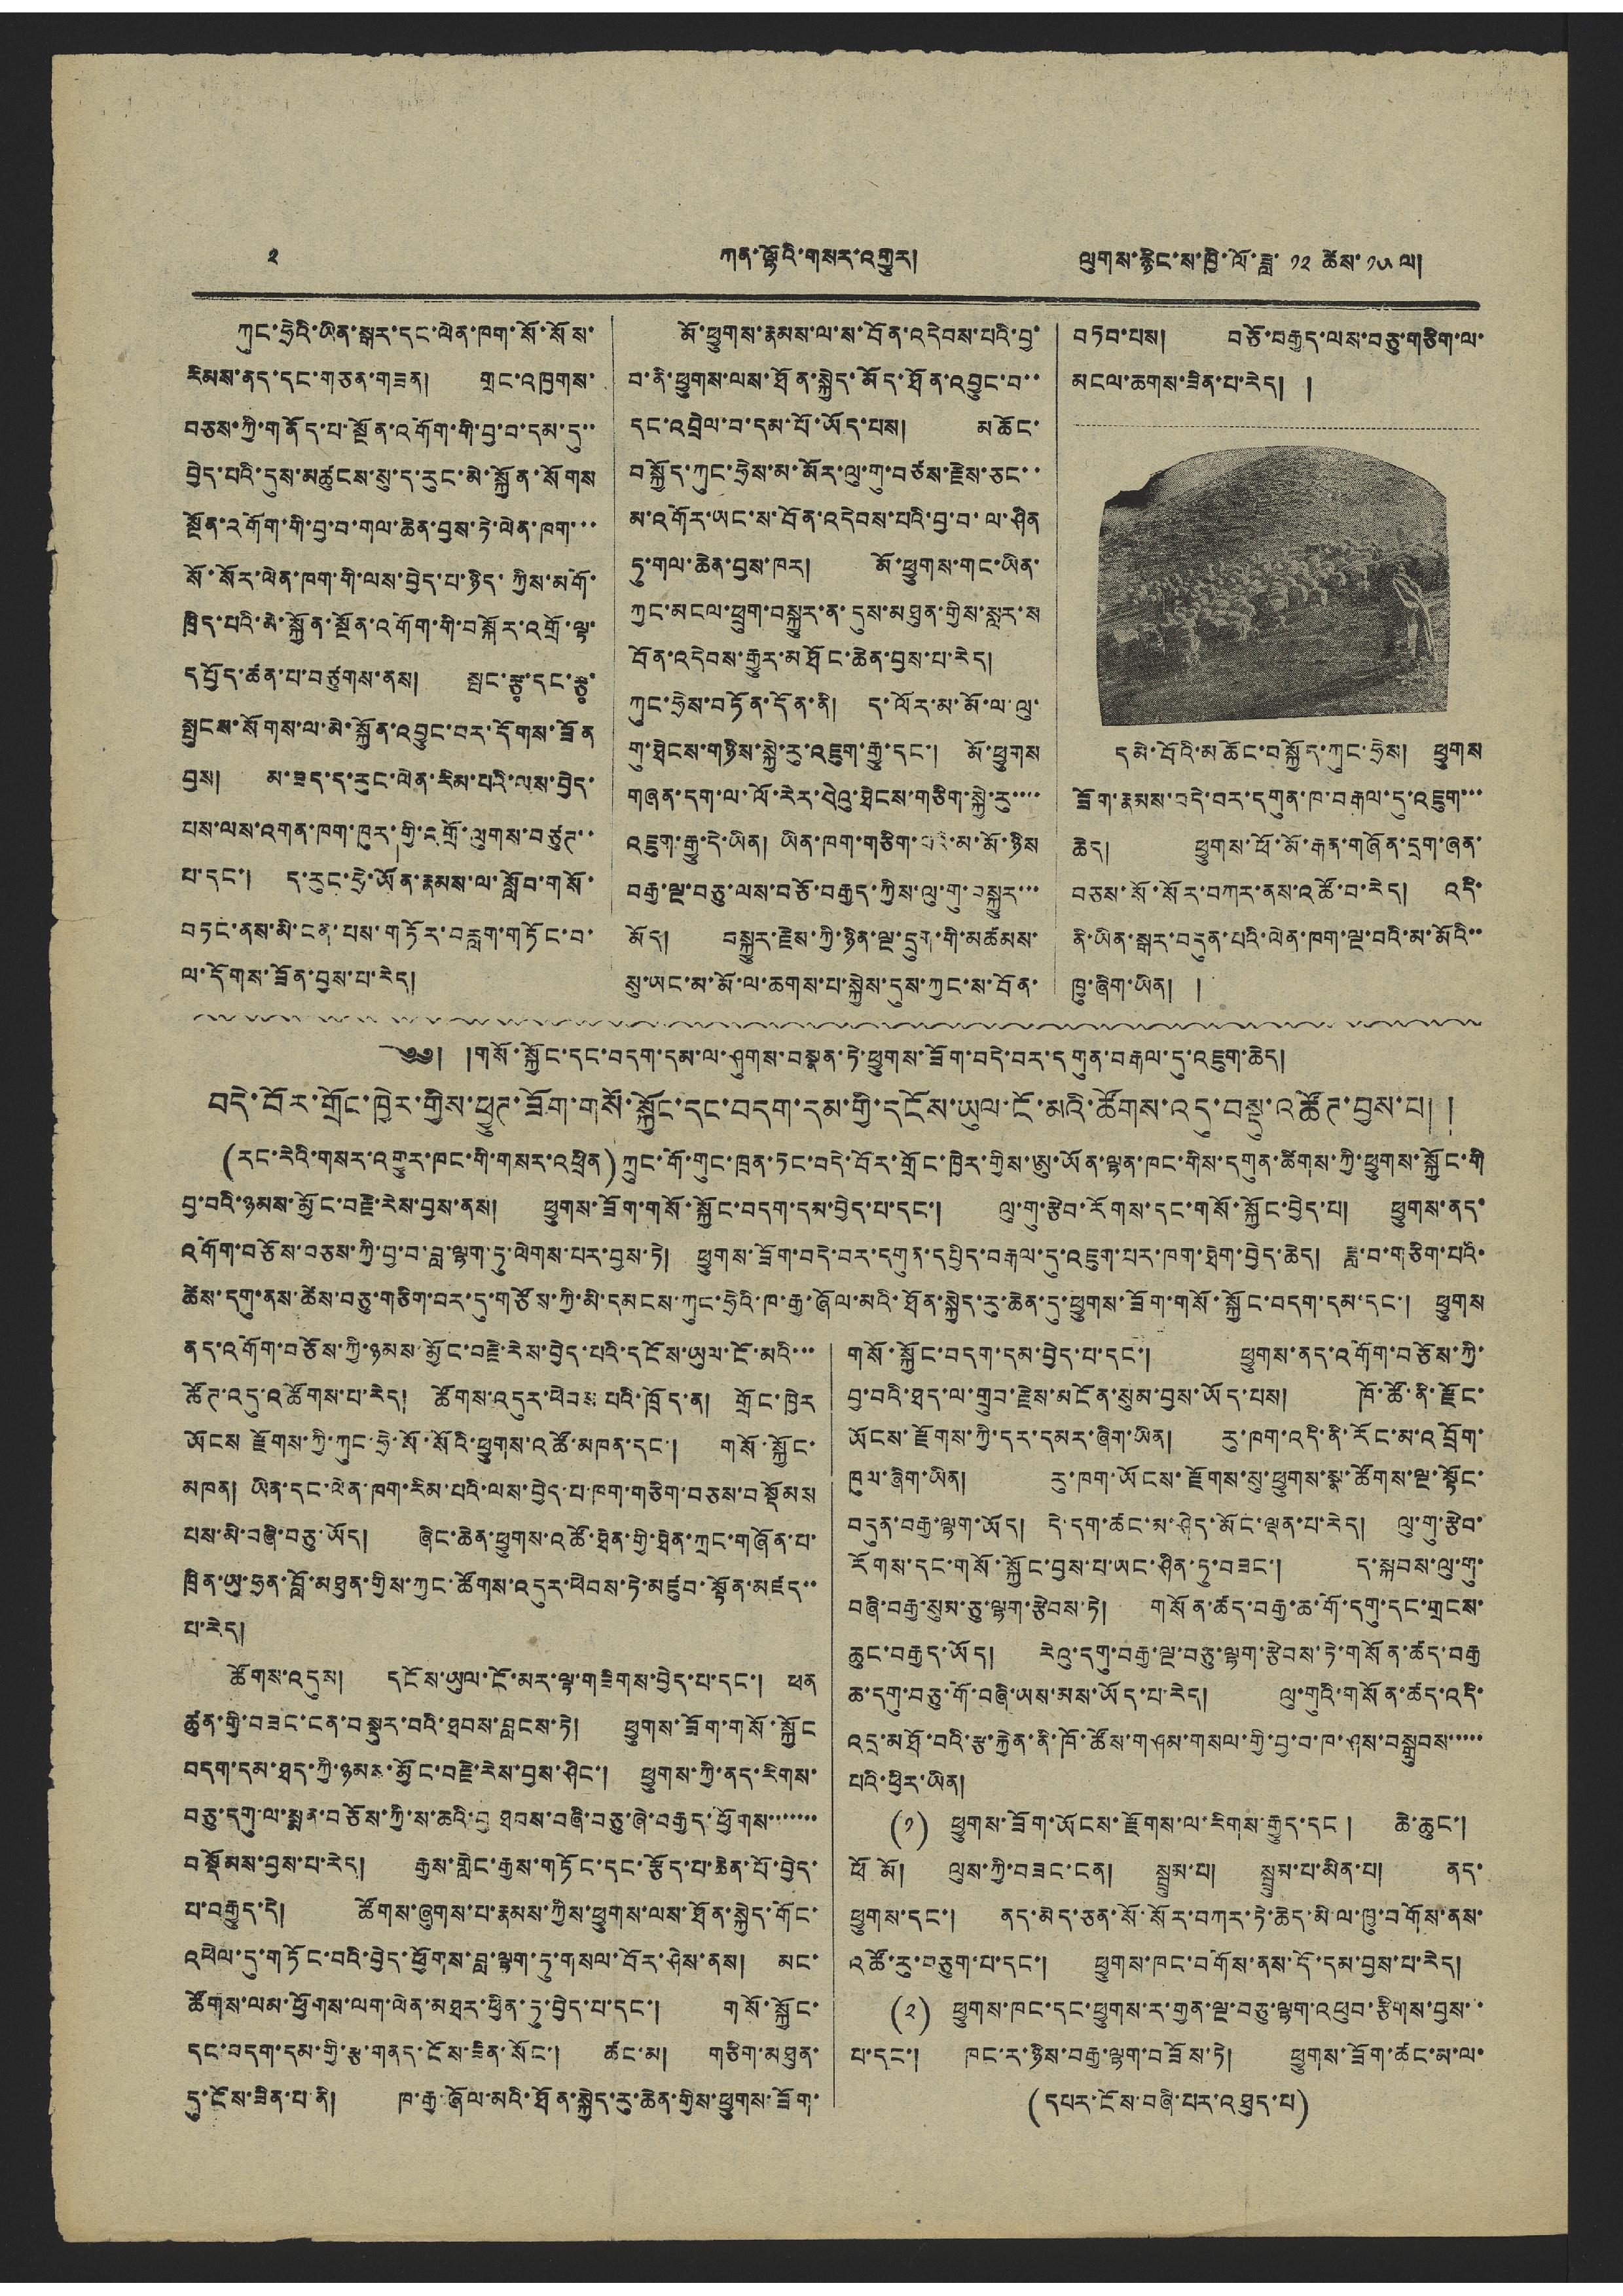༢ ཀན་ལྷོའི་གསར་འགྱུར། ལུགས་རྙིང་ས་ཁྱི་ལོ་ཟླ་ ༡༢ ཚེས་ ༡༥ ལ།
ཀུང་ཧྲེའི་ཡིན་སྒར་དང་ལེན་ཁག་སོ་སོས་
རིམས་ནད་དང་གཅན་གཟན། གྲང་འཁྱགས་
བཅས་ཀྱི་གནོད་པ་སྔོན་འགོག་གི་བྱ་བ་དམ་དུ་་
བྱེད་པའི་དུས་མཚུངས་སུ་ད་རུང་མེ་སྐྱོན་སོགས
སྔོན་འགོག་གི་བྱ་བ་གལ་ཆེན་བྱས་ཏེ་ལེན་ཁག་་་
སོ་སོར་ལེན་ཁག་གི་ལས་བྱེད་པ་ཉིད་ཀྱིས་མགོ་
ཁྲིད་པའི་མེ་སྐྱོན་སྔོན་འགོག་གི་བསྐོར་འགྲོ་ལྟ་
དཔྱོད་ཚན་པ་བཙུགས་ནས། སྤང་རྩྭ་དང་རྩྭ་
སྤུངས་སོགས་ལ་མེ་སྐྱོན་འབྱུང་བར་དོགས་ཟོན
བྱས། མ་ཟད་ད་རུང་ལེན་རིམ་པའི་ལས་བྱེད་
པས་ལས་འགན་ཁག་ཁུར་གྱི་འགྲོ་ལུགས་བཙུཌ་་
པ་དང་། ད་རུང་ཧྲེ་ཡོན་རྣམས་ལ་སློབ་གསོ་
བཏང་ནས་མི་ངན་པས་གཏོར་བརླག་གཏོང་བ་
ལ་དོགས་ཟོན་བྱས་པ་རེད།
མོ་ཕྱུགས་རྣམས་ལ་ས་བོན་འདེབས་པའི་བྱ་
བ་ནི་ཕྱུགས་ལས་ཐོན་སྐྱེད་མོད་ཐོན་འབྱུང་བ་་
དང་འབྲེལ་བ་དམ་པོ་ཡོད་པས། མཆོང་
བསྐྱོད་ཀུང་ཧྲེས་མ་མོར་ལུ་གུ་བཙས་རྗེས་ཅང་་
མ་འགོར་ཡང་ས་བོན་འདེབས་པའི་བྱ་བ་ལ་ཤིན
ཏུ་གལ་ཆེན་བྱས་ཁར། མོ་ཕྱུགས་གང་ཡིན་
ཀྱང་མངལ་ཕྲུག་བསྐྱུར་ན་དུས་མཐུན་གྱིས་སླར་ས
བོན་འདེབས་རྒྱུར་མཐོང་ཆེན་བྱས་པ་རེད།
ཀུང་ཧྲེས་བཏོན་དོན་ནི། ད་ལོར་མ་མོ་ལ་ལུ་
གུ་ཐེངས་གཉིས་སྐྱེ་རུ་འཇུག་རྒྱུ་དང་། མོ་ཕྱུགས
གཞན་དག་ལ་ལོ་རེར་བེའུ་ཐེངས་གཅིག་སྐྱེ་རུ་་་་
འཇུག་རྒྱུ་དེ་ཡིན། ཡིན་ཁག་གཅིག་པའི་མ་མོ་ཉིས
བརྒྱ་ལྔ་བཅུ་ལས་བཅོ་བརྒྱ་ཀྱིས་ལུ་གུ་བསྐྱུར་་་
མོད། བསྐྱུར་རྗེས་ཀྱི་ཉིན་ལྔ་དྲུག་གི་མཚམས་
སུ་ཡང་མ་མོ་ལ་ཆགས་པ་སྐྱེས་དུས་ཀྱང་ས་བོན་
བཏབ་པས། བཅོ་བརྒྱད་ལས་བཅུ་གཅིག་ལ་
མངལ་ཆགས་ཟིན་པ་རེད། །
དམེ་བོའི་མཆོང་བསྐྱོད་ཀུང་ཧྲེས། ཕྱུགས
ཟོག་རྣམས་བདེ་བར་དགུན་ཁ་བརྒལ་དུ་འཇུག་་་
ཆེད། ཕྱུགས་ཕོ་མོ་རྒན་གཞོན་དྲག་ཞན་
བཅས་སོ་སོར་བཀར་ནས་འཚོ་བ་རེད། འདི་
ནི་ཡིན་སྒར་བདུན་པའི་ལེན་ཁག་ལྔ་བའི་མ་མོའི་་
ཁྱུ་ཞིག་ཡིན། །
༄༅། །གསོ་སྐྱོང་དང་བདག་དམ་ལ་ཤུགས་བསྣན་ཏེ་ཕྱུགས་ཟོག་བདེ་བར་དགུན་བརྒལ་དུ་འཇུག་ཆེད།
བདེ་བོར་གྲོང་ཁྱེར་གྱིས་ཕྱུཊ་ཟོག་གསོ་སྐྱོང་དང་བདག་དམ་གྱི་དངོས་ཡུལ་ངོ་མའི་ཚོགས་འདུ་བསྡུ་འཚོཊ་བྱས་པ། །
(རང་རེའི་གསར་འགྱུར་ཁང་གི་གསར་འཕྲིན)ཀྲུང་གོ་གུང་ཁྲན་ཏང་བདེ་བོར་གྲོང་ཁྱེར་གྱིས་ཨུ་ཡོན་ལྷན་ཁང་གིས་དགུན་ཚིགས་ཀྱི་ཕྱུགས་སྐྱོང་གི
བྱ་བའི་ཉམས་མྱོང་བརྗེ་རེས་བྱས་ནས། ཕྱུགས་ཟོག་གསོ་སྐྱོང་བདག་དམ་བྱེད་པ་དང་། ལུ་གུ་རྩེབ་རོགས་དང་གསོ་སྐྱོང་བྱེད་པ། ཕྱུགས་ནད་
འགོག་བཅོས་བཅས་ཀྱི་བྱ་བ་བ་ལྷག་ཏུ་ལེགས་པར་བྱས་ཏེ། ཕྱུགས་ཟོག་བདེ་བར་དགུན་དཔྱིད་བརྒལ་དུ་འཇུག་པར་ཁག་ཐེག་བྱེད་ཆེད། ཟླ་བ་གཅིག་པའི་
ཚེས་དགུ་ནས་ཚེས་བཅུ་གཅིག་བར་དུ་གཙོས་ཀྱི་མི་དམངས་ཀུང་ཧྲེའི་ཁ་རྒྱ་ཞོལ་མའི་ཐོན་སྐྱེད་རུ་ཆེན་དུ་ཕྱུགས་ཟོག་གསོ་སྐྱོང་བདག་དམ་དང་། ཕྱུགས
ནད་འགོག་བཅོས་ཀྱི་ཉམས་མྱོང་བརྗེ་རེས་བྱེད་པའི་དངོས་ཡུལ་ངོ་མའི་་་
ཚོཊ་འདུ་འཚོགས་པ་རེད། ཚོགས་འདུར་ཕེབས་པའི་ཁྲོད་ན། གྲོང་ཁྱེར
ཡོངས་རྫོགས་ཀྱི་ཀུང་ཧྲེ་སོ་སོའི་ཕྱུགས་འཚོ་མཁན་དང་། གསོ་སྐྱོང་
མཁན། ཡིན་དང་ལེན་ཁག་རིམ་པའི་ལས་བྱེད་པ་ཁག་གཅིག་བཅས་བསྡོམས
པས་མེ་བཞི་བཅུ་ཡོད། ཞིང་ཆེན་ཕྱུགས་འཚོ་ཐེན་གྱི་ཐེན་ཀྲང་གཞོན་པ་
ཁྲིན་ཡུ་ཧྲན་བློ་མཐུན་གྱིས་ཀྱང་ཚོགས་འདུར་ཕེབས་ཏེ་མཛུབ་སྟོན་མཛད་་
པ་རེད།
ཚོགས་འདུས། དངོས་ཡུལ་ངོ་མར་ལྟ་གཟིགས་བྱེད་པ་དང་། ཕན
ཚུན་གྱི་བཟང་ངན་བསྡུར་བའི་ཐབས་བླངས་ཏེ། ཕྱུགས་ཟོག་གསོ་སྐྱོང
བདག་དམ་ཐད་ཀྱི་ཉམས་མྱོང་བརྗེ་རེས་བྱས་ཤིང་། ཕྱུགས་ཀྱི་ནད་རིགས་
བཅུ་དགུ་ལ་སྨན་བཅོས་ཀྱི་ས་ཆའི་བྱ ཐབས་བཞི་བཅུ་ཞེ་བརྒྱད་ཕྱོགས་་་་་་་
བསྡོམས་བྱས་པ་རེད། རྒྱས་གླེང་རྒྱས་གཏོང་དང་རྩོད་པ་ཆེན་པོ་བྱེད་
པ་བརྒྱུད་དེ། ཚོགས་ཞུགས་པ་རྣམས་ཀྱིས་ཕྱུགས་ལས་ཐོན་སྐྱེད་གོང་
འཕེལ་དུ་གཏོང་བའི་བྱེད་ཕྱོགས་བླ་ལྷག་ཏུ་གསལ་བོར་ཤེས་ནས། མང་
ཚོགས་ལམ་ཕྱོགས་ལག་ལེན་མཐར་ཕྱིན་ཏུ་བྱེད་པ་དང་། གསོ་སྐྱོང་
དང་བདག་དམ་གྱི་རྩ་གནད་ངོས་ཟིན་སོང་། ཚང་མ། གཅིག་མཐུན་
དུ་ངོས་ཟིན་པ་ནི། ཁ་རྒྱ་ཞོལ་མའི་ཐོན་སྐྱེད་རུ་ཆེན་གྱིས་ཕྱུགས་ཟོག་
གསོ་སྐྱོང་བདག་དམ་བྱེད་པ་དང་། ཕྱུགས་ནད་འགོག་བཅོས་ཀྱི་
བྱ་བའི་ཐད་ལ་གྲུབ་རྗེས་མངོན་སུམ་བྱས་ཡོད་པས། ཁོ་ཚོ་ནི་རྫོང་
ཡོངས་རྫོགས་ཀྱི་དར་དམར་ཞིག་ཡིན། རུ་ཁག་འདི་ནི་རོང་མ་འབྲོག་
ཁུལ་ཞིག་ཡིན། རུ་ཁག་ཡོངས་རྫོགས་སུ་ཕྱུགས་སྣ་ཚོགས་ལྔ་སྟོང་
བདུན་བརྒྱ་ལྷག་ཡོད། དེ་དག་ཚང་མ་ཤེད་མོང་ལྡན་པ་རེད། ལུ་གུ་རྩེབ་
རོགས་དང་གསོ་སྐྱོང་བྱས་པ་ཡང་ཤིན་ཏུ་བཟང་། ད་སྐབས་ལུ་གུ་
བཞི་བརྒྱ་སུམ་ཅུ་ལྷག་རྩེབས་ཏེ། གསོན་ཚད་བརྒྱ་ཆ་གོ་དགུ་དང་གྲངས་
ཆུང་བརྒྱད་ཡོད། རེའུ་དགུ་བརྒྱ་ལྔ་བཅུ་ལྷག་རྩེབས་ཏེ་གསོན་ཚད་བརྒྱ
ཆ་དགུ་བཅུ་གོ་བཞི་ཡས་མས་ཡོད་པ་རེད། ལུ་གུའི་གསོན་ཚད་འདི་
འདྲ་མཐོ་བའི་རྩ་རྐྱེན་ནི་ཁོ་ཚོས་གཤམ་གསལ་གྱི་བྱ་བ་ཁ་ཤས་བསྒྲུབས་་་་་
པའི་ཕྱིར་ཡིན།
(༡) ཕྱུགས་ཟོག་ཡོངས་རྫོགས་ལ་རིགས་རྒྱུད་དང་། ཆེ་ཆུང་།
ཕོ མོ། ལུས་ཀྱི་བཟང་ངན། སྦྲུམ་པ། སྦྲུམ་པ་མིན་པ། ནད་
ཕྱུགས་དང་། ནད་མེད་ཅན་སོ་སོར་བཀར་ཏེ་ཆེད་མི་ལ་ཁྱུ་བགོས་ནས་
འཚོ་རུ་བཅུག་པ་དང་། ཕྱུགས་ཁང་བགོས་ནས་དོ་དམ་བྱས་པ་རེད།
(༢) ཕྱུགས་ཁང་དང་ཕྱུགས་ར་གྱན་ལྔ་བཅུ་ལྷག་འཕུབ་རྩིགས་བྱས་་
པ་དང་། ཁང་ར་ཉིས་བརྒྱ་ལྷག་བཟོས་ཏེ། ཕྱུགས་ཟོག་ཚང་མ་ལ་
(དཔར་ངོས་བཞི་པར་འཐུད་པ)
